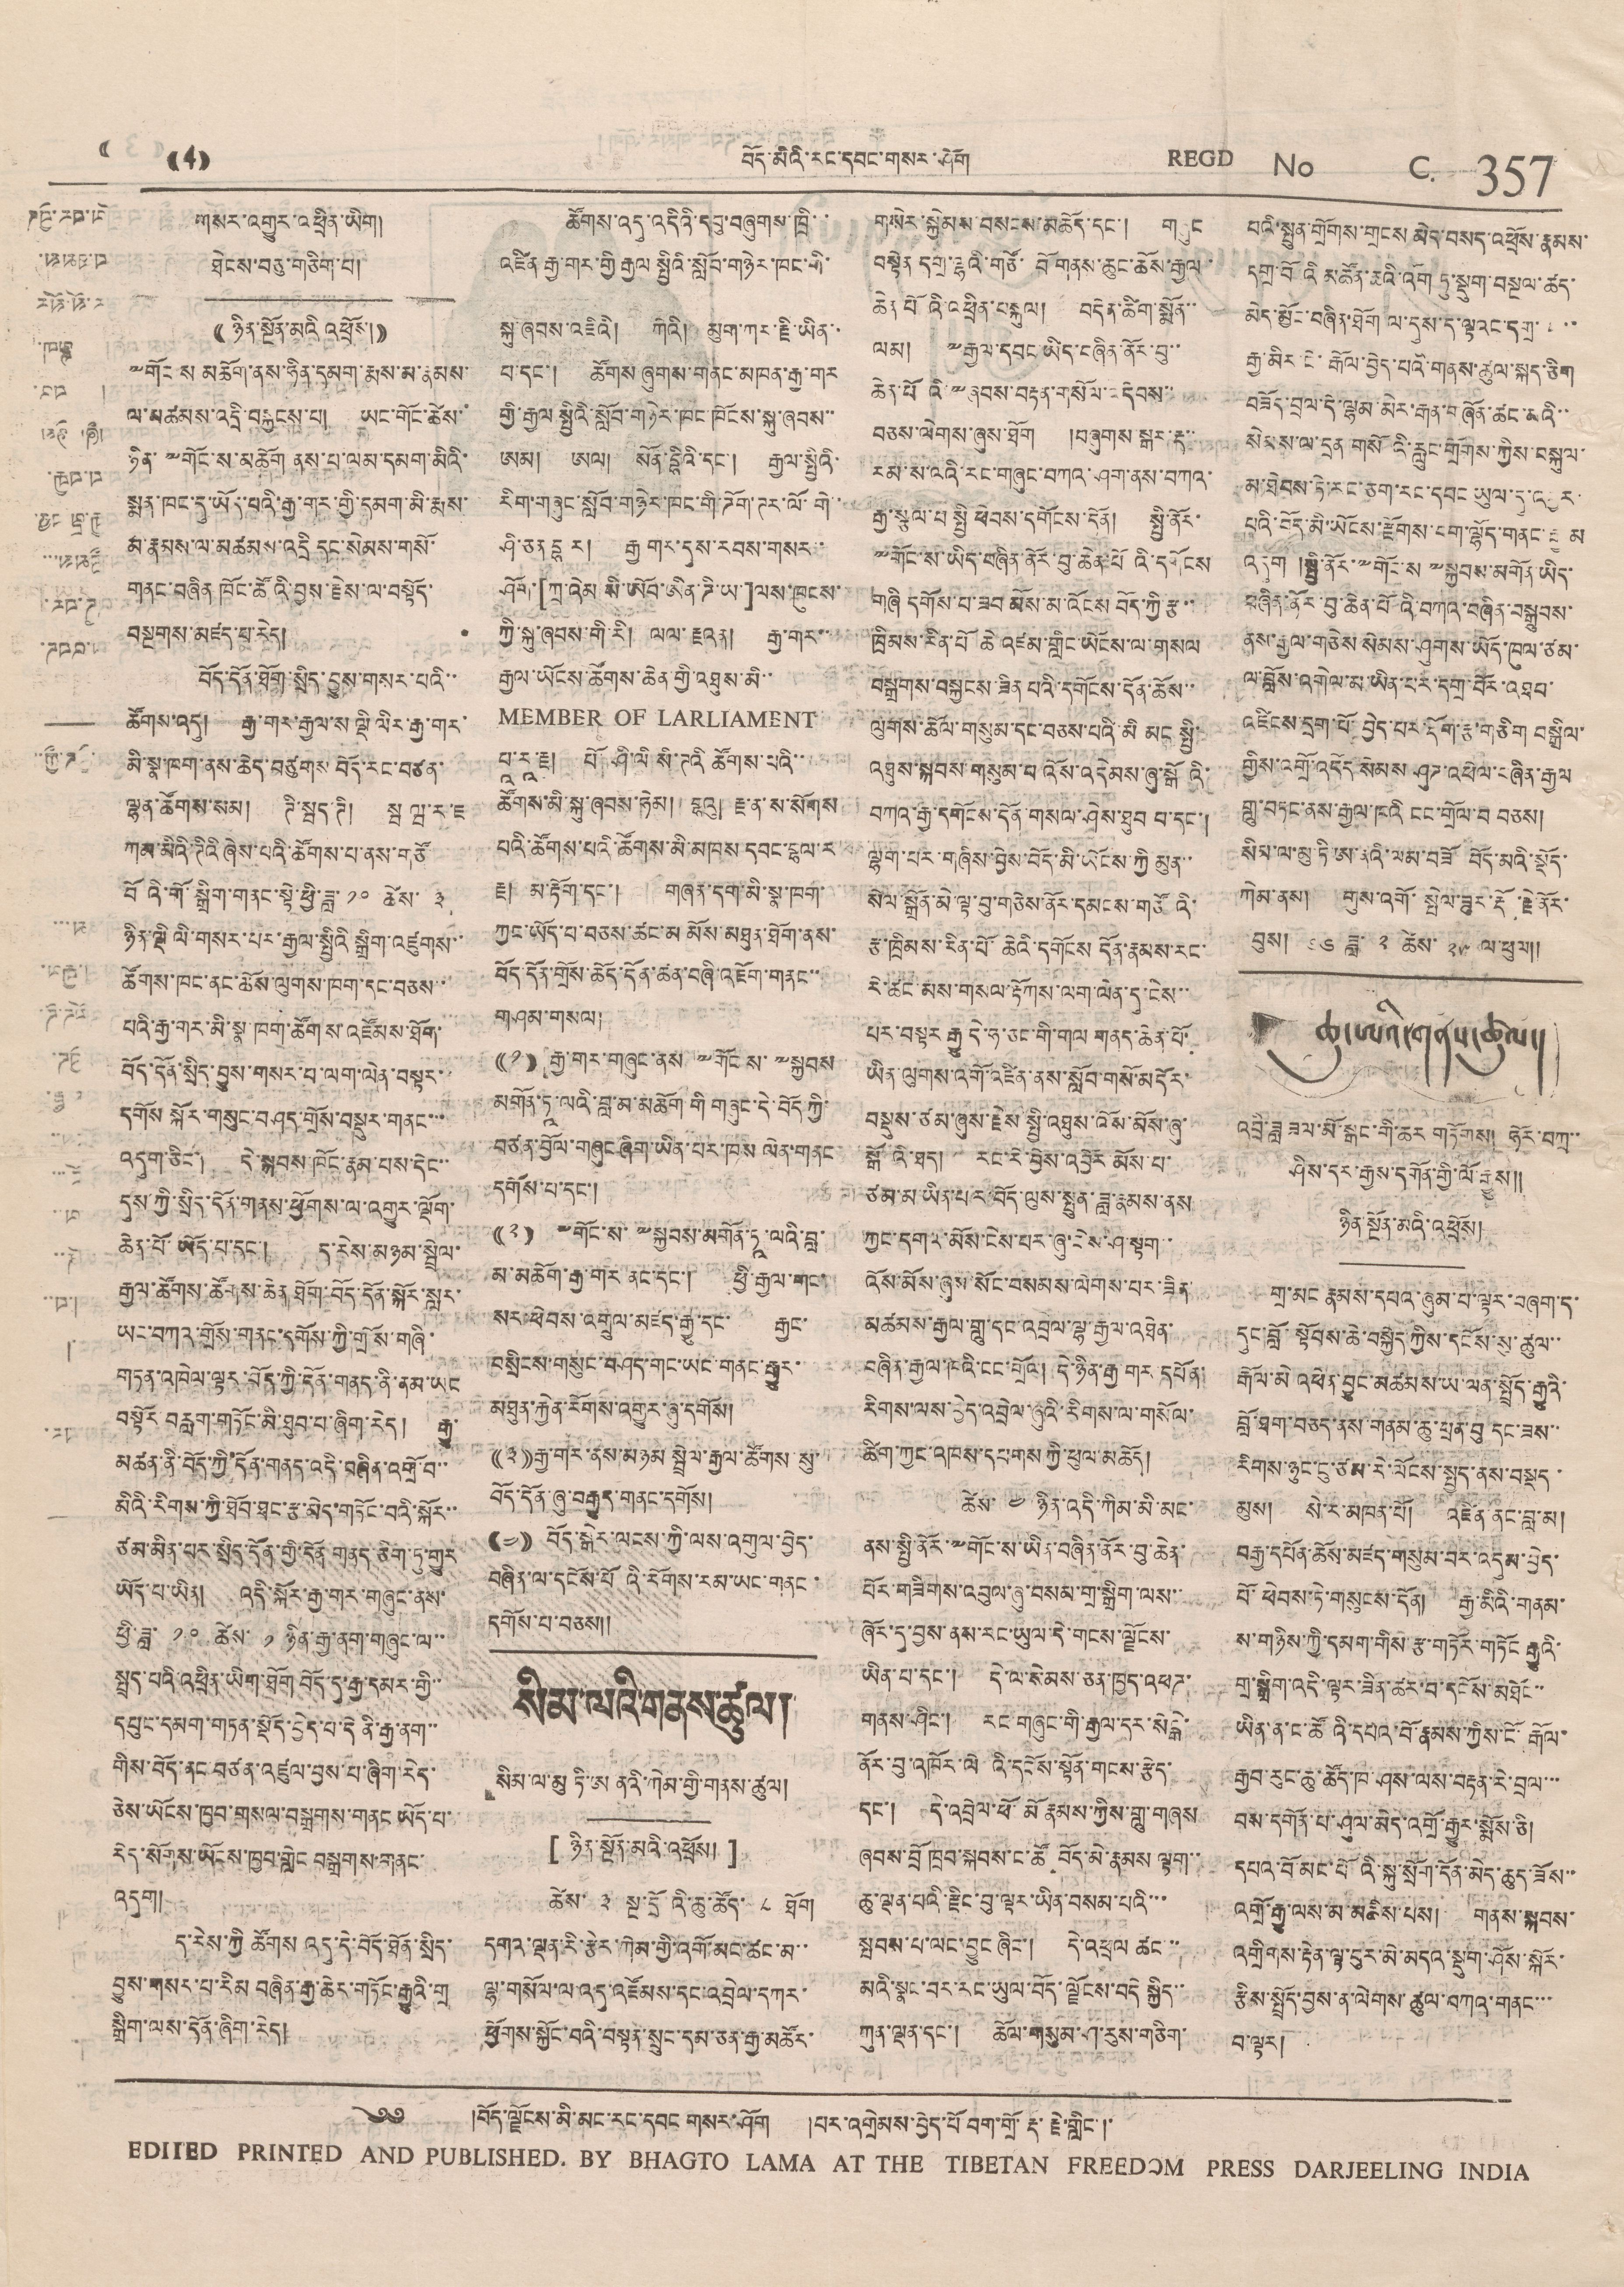བོད་མིའི་རང་དབང་གསར་ཤོག REGD No C. 357
((4))
གསར་འགྱུར་འཕྲིན་ཡིག།
ཐེངས་བཅུ་གཅིག་པ།
(( ཉིན་སྔོན་མའི འཕྲོས། ))
༸གོང ས མཆོག་ནས་ཧིན་དམག་རྨས་མ་རྣམས་
ལ་འཚམས་འདྲི་བསྐྱངས་པ། ཡང་གོང་ཚེས་
ཉིན་༸གོང་ས་མཆོག ནས་པ་ལམ་དམག་མིའི་
སྨན་ཁང་དུ་ཡོད་པའི་རྒྱ་གར་གྱི་དམག་མི་རྨས་
མ་རྣམས་ལ་མཚམས་འདྲི དང་སེམས་གསོ་
གནང་བཞིན ཁོང་ཚོའི་བྱས་རྗེས་ལ་བསྟོད་
བསྔགས་མཛད་པ་རེད།
བོད་དོན་ཐོག་སྲིད་བྱུས་གསར་པའི་་
ཚོགས་འདུ། རྒྱ་གར་རྒྱལ་ས་ལྡི་ལིར་རྒྱ་གར་
མི་སྣ་ཁག་ནས་ཆེད་བཙུགས བོད་རང་བཙན་
ལྷན་ཚོགས་སམ། ཊི་སྦད་ཊི། སྦ ཝ་ར་ཇ
ཀམ་མིའི་ཊིའི ཞེས་པའི་ཚོགས་པ་ནས་གཙོ
བོའི་གོ་སྒྲིག་གནང་སྟེ་ཕྱི་ཟླ་ ༡༠ ཚེས་ ༣
ཉིན་ལྡི་ལི་གསར་པར་རྒྱལ་སྤྱིའི སྒྲིག་འཛུགས་་
ཚོགས་ཁང་ནང་ཆོས་ལུགས་ཁག་དང་བཅས་་
པའི་རྒྱ་གར་མི་སྣ་ཁག་ཚོགས་འཛོམས་ཐོག་
བོད་དོན་སྲིད་བྱུས་གསར་པ་ལག་ལེན་བསྟར་་
དགོས་སྐོར་གསུང་བཤད་གྲོས་བསྡུར་གནང་་་
འདུག་ཅིང། དེ་སྐབས་ཁོང་རྣམ་པས་དེང་་
དུས་ཀྱི་སྲིད་དོན་གནས་ཕྱོགས་ལ་འགྱུར་ལྡོག་
ཆེན་པོ་ཡོད་པ་དང་། ད་རེས་མཉམ་སྦྲེལ་
རྒྱལ་ཚོགས་ཚོགས་ཆེན་ ཐོག་བོད་དོན་སྐོར་སླར་
ཡང་བཀའ་གྲོས་གནང་དགོས་ཀྱི་གྲོས་གཞི་
གཏན་འཁེལ་ལྟར་བོད་ཀྱི་དོན་གནད་ནི་ནམ་ཡང
བསྟོར་བརླག་གཏོང་མི་ཐུབ་པ་ཞིག་རེད། རྒྱུ་
མཚན་ནི་བོད་ཀྱི་དོན་གནད་འདི་བཞིན་འགྲོ་བ་་
མིའི་རིགས་ཀྱི་ཐོབ་ཐང་རྩ་མེད་གཏོང་བའི་སྐོར་་
ཙམ་མིན་པར་སྲིད་དོན་གྱི་དོན གནད་ཅིག་ཏུ་གྱུར
ཡོད་པ་ཡིན། འདི་སྐོར་རྒྱ་གར་གཞུང་ནས་
ཕྱི་ཟླ་ ༡༠ ཚེས་ ༡ ཉིན་རྒྱ་ནག་གཞུང་ལ་་
སྤྲད་པའི་འཕྲིན་ཡིག་ཐོག་བོད་དུ་རྒྱ་དམར་གྱི་་
དཔུང་དམག་གཏན་སྡོད་བྱེད་པ་དེ ནི་རྒྱ་ནག་་
གིས་བོད་ནང་བཙན་འཛུལ་བྱས་པ་ཞིག་རེད་
ཅེས་ཡོངས་ཁྱབ་གསལ་བསྒྲགས་གནང ཡོད་པ་
རེད་སོགས་ཡོངས་ཁྱབ་གླེང བསྒྲགས་གནང་
འདུག།
ད་རེས་ཀྱི ཚོགས་འདུ་དེ་བོད་ཐོན་སྲིད་
བྱུས་གསར་པ་རིམ བཞིན་རྒྱ་ཆེར་གཏོང་རྒྱུའི་གྲ
སྒྲིག་ལས་དོན་ཞིག་རེད།
ཚོགས་འདུ་འདིའི་དབུ་བཞུགས་ཁྲི་་
འཛིན རྒྱ་གར་གྱི རྒྱལ སྤྱིའི་སློབ་གཉེར་ཁང་གི་
སྐུ་ཞབས་འཇིའི། ཀེའ། མུག་ཀར་རྗི་ཡིན་
པ་དང་། ཚོགས ཞུགས་གནང་མཁན་རྒྱ་གར
གྱི་རྒྱལ་སྤྱིའི་སློབ་གཉེར་ཁང་ཁོངས་སྐུ་ཞབས་་
ཨམ། ཨལ། སོན་དྷིའི་དང་། རྒྱལ་སྤྱིའི་
རིག་གཞུང་སློབ་གཉེར་ཁང་གི་ཌོག་ཊར་ལོ་གེ་
ཤི་ཅན་དྷ ར། རྒྱ གར་དུས་རབས་གསར་་
ཤོད་[ཀྲ་འེམ སི་ཨོབ་ཨིན་ཌི་ཡ]ལས་ཁུངས་
ཀྱི་སྐུ་ཞབས་གི་རི། ལལ་རྗའན། རྒྱ་གར་་
རྒྱལ་ཡོངས་ཚོགས་ཆེན་གྱི་འཐུས་མི་་
MEMBER OF LARLIAMENT
པཱ་རཱ་རྗ། པོ་ཤི་ལི སི་ཊའི ཚོགས་པའི་་
ཚོགས་མི་སྐུ་ཞབས་ཧེམ། དྷའུ། རྗ་ན་ས་སོགས
པའི་ཚོགས་པའི་ཚོགས་མི་མཁས་དབང་བྷལ་ར
རྗ། མ་རྟོག་དང་། གཞན་དག་མི་སྣ་ཁག་
ཀྱང་ཡོད་པ་བཅས་ཚང་མ་ མོས་མཐུན་ཐོག་ནས་
བོད་དོན་གྲོས་ཆོད་དོན་ཚན་བཞི་འཇོག་གནང་་
གཤམ་གསལ།
((༡)) རྒྱ་གར་གཞུང་ནས་༸གོང་ས་༸སྐྱབས
མགོན་ཏཱ་ལའི་བླ་མ་མཆོག་གི གཞུང་དེ་བོད་ཀྱི་
བཙན་བྱོལ་གཞུང་ཞིག་ཡིན་པར་ཁས་ལེན་གནང
དགོས་པ་དང་།
((༢)) ༸གོང་ས་༸སྐྱབས་མགོན་ཏཱ་ལའི་བླ་
མ་མཆོག་རྒྱ་གར ནང་དང་། ཕྱི་རྒྱལ་གང་
སར་ཕེབས་འགྲུལ་མཛད་རྒྱུ་དང་ རྒྱང་
བསྲིངས་གསུང་བཤད་གང་ཡང་གནང་རྒྱུར་
མཐུན་རྐྱེན་རོགས་འགྱུར་ཞུ་དགོས།
((༣))རྒྱ་གར་ནས་མཉམ སྤྲེལ་རྒྱལ་ཚོགས་སུ་
བོད་དོན་ཞུ་བརྒྱུད་གནང་དགོས།
((༤)) བོད་སྒེར་ལངས་ཀྱི་ལས་འགུལ་བྱེད་
བཞིན་ལ་དངོས་པོ འི་རོགས་རམ་ཡང་གནང་
དགོས་པ་བཅས།།
སིམ་ལའི་གནས་ཚུལ།
སིམ་ལ་མུ་ཏི་ཨ ནའི་ཀེམ་གྱི་གནས་ཚུལ།
[ ཉིན་སྔོན་མའི་འཕྲོས། ]
ཚེས་ ༣ སྔ་དྲོའི་ཆུ་ཚོད་ ༨ ཐོག
དགའ་ལྡན་རི་རྩེར་ཀེམ་གྱི་འགོ་མང་ཚང་མ་་
ལྷ་གསོལ་ལ་འདུ་འཛོམས་དང་འབྲེལ་དཀར་
ཕྱོགས་སྐྱོང་བའི་བསྟན་སྲུང་དམ་ཅན་རྒྱ་མཚོར་
ཚེས་ ༤ ཉིན་འདི་ཀིམ་མི་མང་
ནས་སྤྱི་ནོར་༸གོང་ས་ཡིན་བཞིན་ནོར་བུ་ཆེན་
པོར་གཟིགས་འབུལ་ཞུ་བསམ་གྲ་སྒྲིག་ལས་་
ཞོར་དུ་བྱས་ནས་རང་ཡུལ་དེ་གངས་ལྗོངས་
ཡིན་པ་དང་། དེ་ལ་སེམས་ཅན་ཁྱད་འཕཌ་
གནས་ཤིང་། རང་གཞུང་གི་རྒྱལ་དར་སེངྒེ་
ནོར་བུ་འཁོར་ལེ འི་དངོས་སྟོན་གངས་རྩེད་
དང་། དེ་འབྲེལ་ཕོ་མོ རྣམས་ཀྱིས་གླུ་གཞས
ཞབས་བྲོ ཁྲབ་སྐབས་ང་ཚོ བོད་མི་རྣམས་ལྷག་་
ཆུ་ལྡན་པའི་རྫིང་བུ་ལྟར་ཡིན་བསམ་པའི་་་
སྤབས་པ་ལང་བྱུང་ཞིང་། དེ་འཕྲལ ཚང་་
མའི་སྣང་བར་རང་ཡུལ་བོད་ལྗོངས་བདེ སྐྱིད་་
ཀུན་ལྡན་དང་། ཆོལ་གསུམ་ཤ་རུས་གཅིག་
གསེར་སྐྱེམས་བསངས་མཆོད་དང་། གཞུང
བསྟེན དགྲ་ལྷའི་གཙོ་ བོ གནས་ཆུང་ཆོས་རྒྱལ་
ཆེན པོའི་འཕྲིན་བསྐུལ། བདེན་ཚིག་སྨོན་་
ལམ། ༸རྒྱལ་དབང་ཡིད་བཞིན་ནོར་བུ་་
ཆེན་པོ་༸ཞབས་བརྟན་གསོལ་འདེབས་་
བཅས་ལེགས་ཞུས་ཐོག །བཞུགས སྒར་རྡ་་
རམ་ས་ལའི་རང་གཞུང་བཀའ་ཤག་ནས་བཀའ་
རྒྱ་སྩལ་པ་སྤྱི ཕེབས་དགོངས་དོན། སྤྱི་ནོར་
༸གོང་ས་ཡིད་བཞིན་ནོར་བུ་ཆེན་པོ འི་དགོངས
གཞི དགོས་པ་ཟབ མོས་མ་འོངས་བོད་ཀྱི་རྩ་་
ཁྲིམས་རིན་པོ ཆེ་འཛམ་གླིང་ཡོངས་ལ་གསལ
བསྒྲགས་བསྐྱངས་ཟིན་པའི་དགོངས་དོན་ཆོས་་
ལུགས་ཚོལ་གསུམ་དང་བཅས་པའི་མི མང སྤྱི་
འཐུས་སྐབས་གསུམ་པ འོས་འདེབས་ཞུ་སྒོ འི་
བཀའ་རྒྱ་དགོངས་དོན་གསལ་ཤེས་ཐུབ པ་དང་།
ལྷག་པར་གཞིས་བྱེས་བོད་མ་ཡོངས་ཀྱི་མུན་་
སེལ་སྒྲོན་མེ་ལྟ་བུའི་གཅེས་ནོར་དམངས་གཙོ འི་
རྩ་ཁྲིམས་རིན་པོ་ཆེའི་དགོངས དོན་རྣམས་རང་
རེ་ཚང་མས་གསལ་རྟོགས་ལག་ལེན་དུ་ངེས་་
པར་བསྟར རྒྱུ དེ་ཧ་ཅང་གི་གལ གནད་ཆེན་པོ་
ཡིན་ལུགས་འགོ་འཛིན་ནས་སློབ་གསོ་མདོར་
བསྡུས་ཙམ་ཞུས་རྗེས སྤྱི་འཐུས་འོས་མོས་ཞུ་
སྒོ འི་ཐད། རང་རེ་བྱེས་འབྱོར མོས་པ་
ཙམ་མ་ཡིན་པར་བོད་ལུས་སྤུན་ཟླ་རྣམས་ནས
ཀྱང་དགའ་མོས་ངེས་པར་ཞུ་ངེས་ཤ་སྟག་་
འོས་མོས་ཞུས་སོང་བསམས་ལེགས་པར་ཟིན་
མཚམས་རྒྱལ་གླུ་དང་འབྲལ་ལྷ་རྒྱལ་འཐེན་
བཞིན་རྒྱལ་ཁའི་ངང་གྲོལ། དེ་ཉིན་རྒྱ་གར དཔོན་
རིགས་ལས་བྱེད་འབྲེལ་ཞུའི་རིགས་ལ་གསོལ་
ཚིག་ཀྱང་འཁས་དཔགས་ཀྱི་ཕུལ་མཆོད།
པའི་སྤུན་གྲོགས་གྲངས མེད་བསད་འཕྲོས་རྣམས་
དགྲ་བོའི་མཚོན་ཆའི་མཚོན་ཆའི་འོག ཏུ་སྡུག་བསྔལ་ཚད་
མེད་མྱོང་བཞིན་ཐོག ལ་དུས་ད་ལྟའང་དགྲ་་་་
རྒྱ་མིར་ངེ་རྒོལ་བྱེད་པའི་གནས་ཚུལ་སྐད་ཅིག
བཟོད་བྲལ་དེ་ལྷམ་མེར་རྒན་བཞོན་ཚང་མའི་་
སེམས་ལ་དྲན གསོ འི་རླུང་གྲོགས་ཀྱིས་བསྐུལ་
མ་ཐེབས་ཏེ་རང་ཅག་རང་དབང་ཡུལ་དུ་འབྱར་
པའི་བོད་མི་ཡོངས་རྫོགས་བག་ལྷོད་གནང་རྒྱ་མ
འདུག །སྤྱི་ནོར་༸གོང་ས་༸སྐྱབས་མགོན་ཡིད་
བཞིན་ནོར་བུ་ཆེན་པོ འི་བཀའ་བཞིན་བསྒྲུབས་
ནས་རྒྱལ་གཅེས་སེམས་ཤུགས་ཡོད་ཁལ་ཙམ་
ལ་བློས་འགེལ་མ་ཡིན་པར་དགྲ་བོར་འཐབ་
འཛིངས་དྲག་པོ་བྱེད་པར་དོག་རྩ་གཅིག བསྒྲིལ་
གྱིས་འགྲོ་འདོདོ སེམས ཤུཌ་འཕེལ་བཞིན་རྒྱལ
གླུ་བཏང་ནས་རྒྱལ་ཁའི ངང་གྲོལ་བ བཅས།
སིམ་ལ་མུ་ཏི ཨ་ནའི་ལམ་བཟོ བོད་མའི་སྡོད་
ཀེམ་ནས། གུས་འགོ་སྤེལ་ཟུར་རྡོ་རྗེ་ནོར་
བུས། ༦༦ ཟླ་ ༢ ཚེས་ ༢༥ ལ་ཕུལ།།
ཆུ་ཨའི་གནས་ཚུལ།
འབྲི་ཟླ ཟལ་མོ་སྒང་གི་ཆར གཏོགས། ཧོར་བཀྲ་་
ཤིས་དར་རྒྱས་དགོན་གྱི་ལོ་རྒྱུས།།
ཉིན་སྔོན་མའི་འཕྲོས།
གྲ་མང རྣམས་དཔའ་ཞུམ་པ་ལྟར་བཞག་ད་
དུང་བློ་སྟོབས་ཆེ་བསྐྱེད་ཀྱིས་དངོས་ཚུལ་་
རྒོལ་མེ འཕེན་བྱུང་མཚམས་ཡ་ལན་སྤྲོད་རྒྱུའི་
བློ་ཐག་བཅད་ནས་གནམ་ཆུ་ཕྲན་བུ་དང་ཟས་་
རིགས་ཉུང་ངུ་ཙམ་རེ་ལོངས་སྤྱད་ནས་བསྡད་
མུས། སེ་ར་མཁན་པོ། འཛིན་ནང་བླ་མ།
བརྒྱ་དཔོན་ཆོས་མཛད་གསུམ་བར་འདུམ་བྱེད་
པོ་ཕེབས་ཏེ་གསུངས་དོན། རྒྱ་མའི་གནམ་
ས་གཉིས་ཀྱི་དམག་གིས་རྩ་གཏོར་གཏོང རྒྱུའི་
གྲ་སྒྲིག་འདི་ལྟར་ཟིན་ཚར་བ་དངོས་མཐོང་་
ཡིན་ན་ང་ཚོའི་དཔའ་བོ་རྣམས་ཀྱིས་ངོ་རྒོལ་
རྒྱབ་རུང་ཆུ་ཚོད་ཁ་ཤས་ལས་བརྟན་རེ་བྲལ་་་
བས་དགོན་པ་ཤུལ་མེད་འགྲོ་རྒྱུར་སྨོས་ཅི།
དཔའ་བོ་མང་པོའི་སྐུ་སྲོག་དོན་མེད་ཆུད་ཟོས་་
འགྲོ་རྒྱུ་ལས་མ་མཆིས་པས། གནས་སྐབས་
འགྲིགས་རྟེན་ལྟ་བུར་མེ་མདའ་སྡུག་ཤོས་སྐོར་
རྩིས་སྤྲོད་བྱས་ན་ལེགས་ཚུལ་བཀའ་གནང་་་
བ་ལྟར།
༄༅ །བོད་ལྗོངས་མི་མང་རང་དབང གསར་ཤོག །པར་འགྲེམས་བྱེད་པོ བག་གྲོ་རྡོ་རྗེ་གླིང་།
EDITED PRINTED AND PUBLISHED. BY BHAGTO LAMA AT THE TIBETA FREEDOM PRESS DARJEELING INDIA
